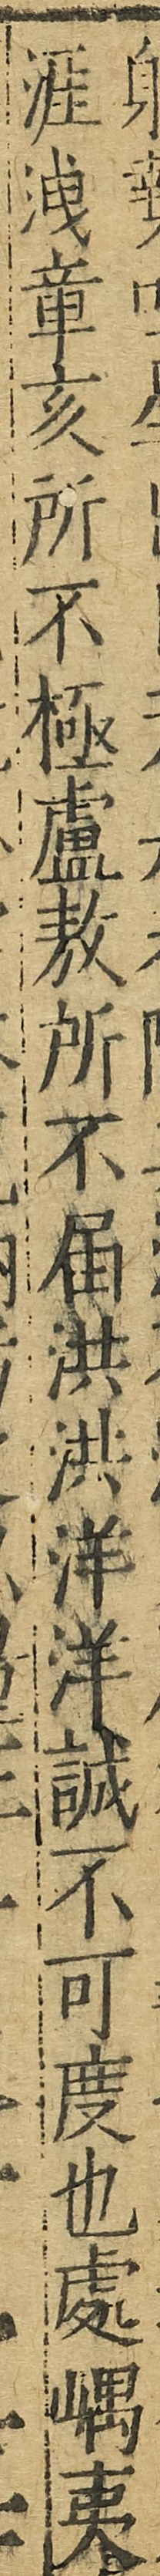涯洩章亥所不極盧敖所不屆洪洪洋洋誠不可度也處嵎夷
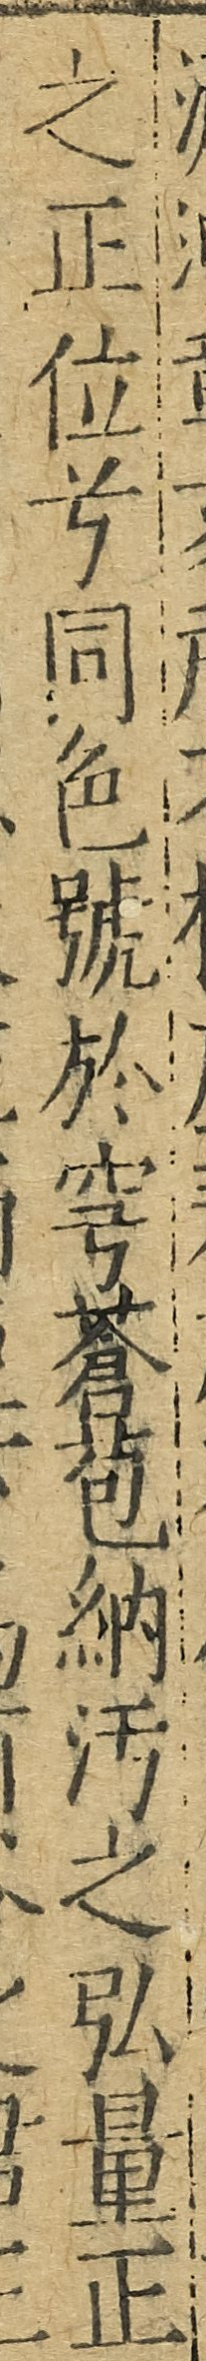之正位兮同色號於穹蒼苞納汙之弘量正
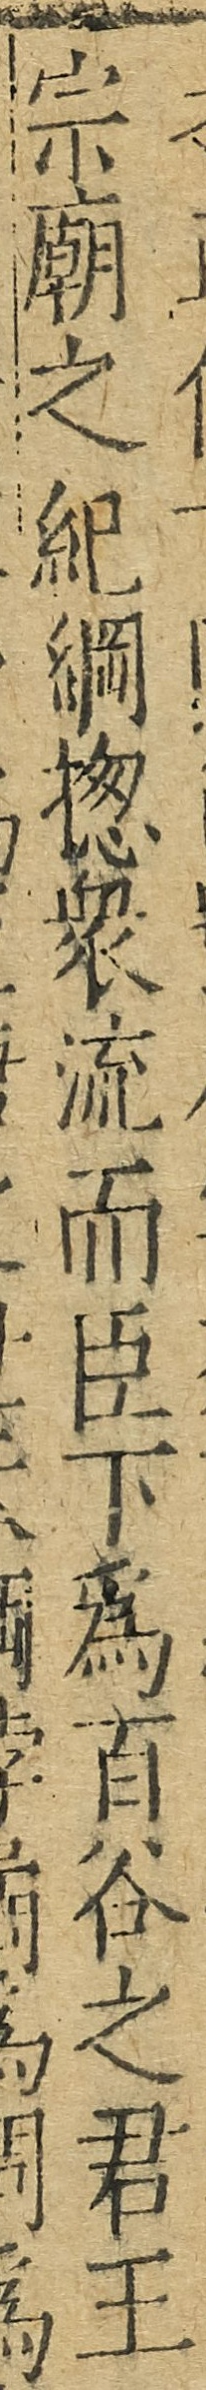宗廟之紀綱揔眾流而臣下為百谷之君王
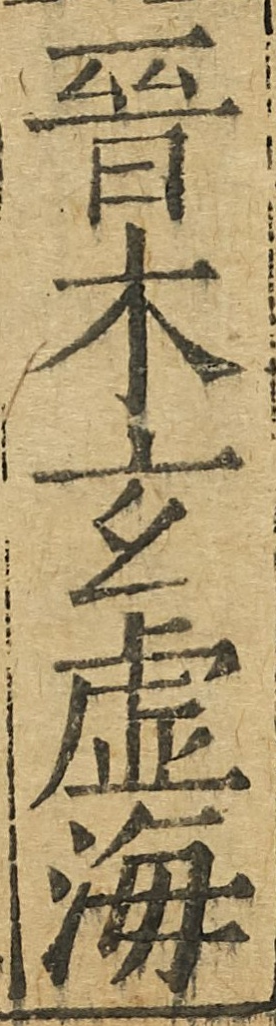晉木玄虛海
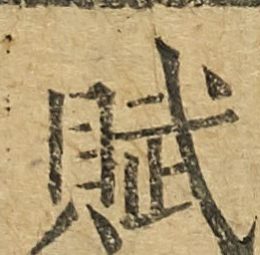賦
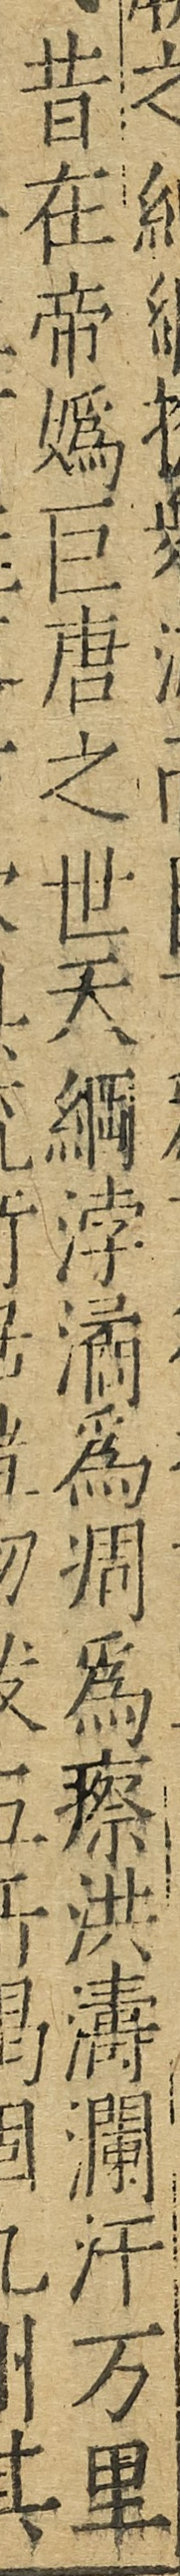昔在帝媯巨唐之世天綱浡潏為凋為瘵洪濤瀾汗萬里
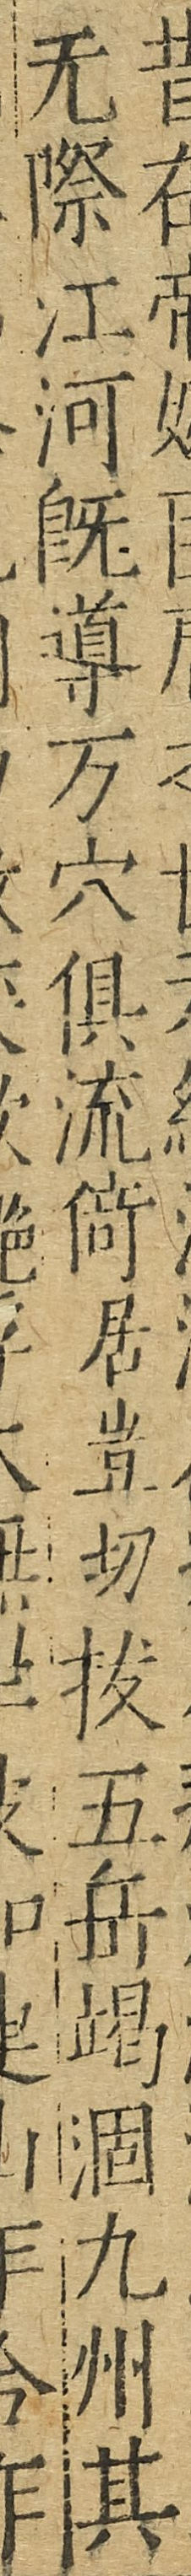無際江河旣導萬穴俱流椅居豈切拔五岳竭涸九州其
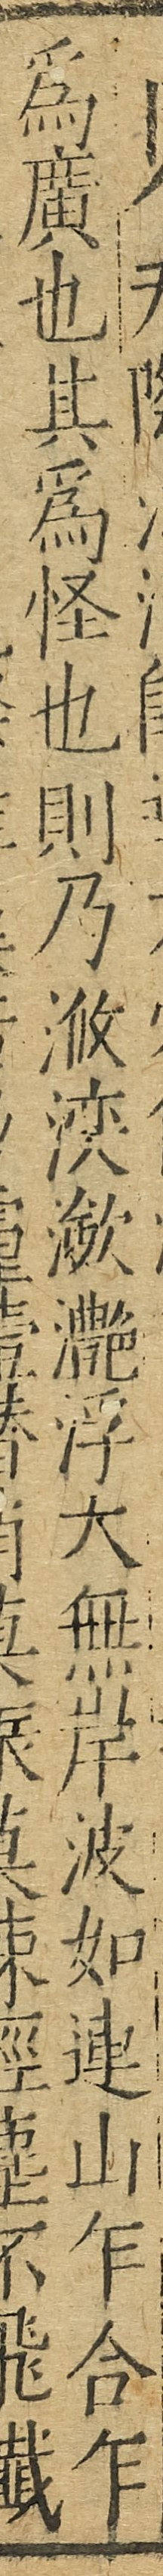為廣也其為怪也則乃浟灤瀲灧浮大無岸波如連山乍合乍
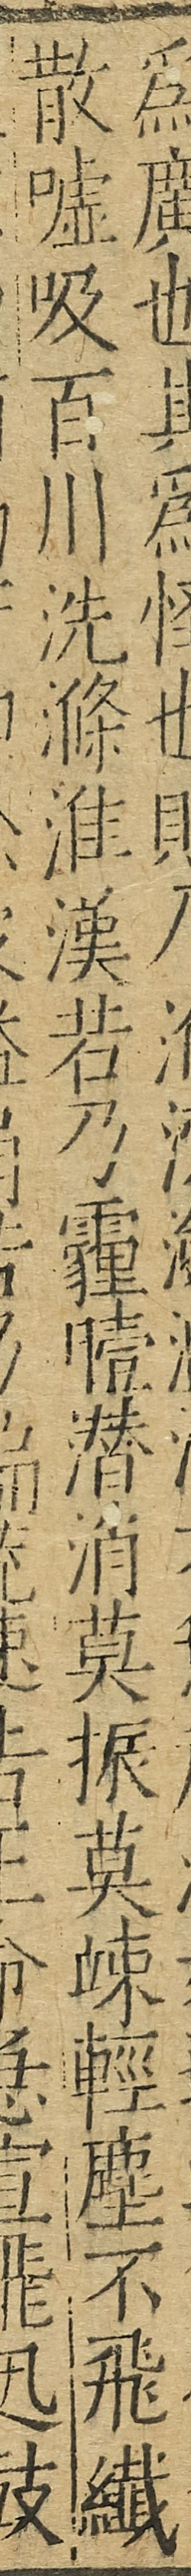散噓吸百川洗滌淮漢若乃霾曀潛消莫振莫竦輕塵不飛纖
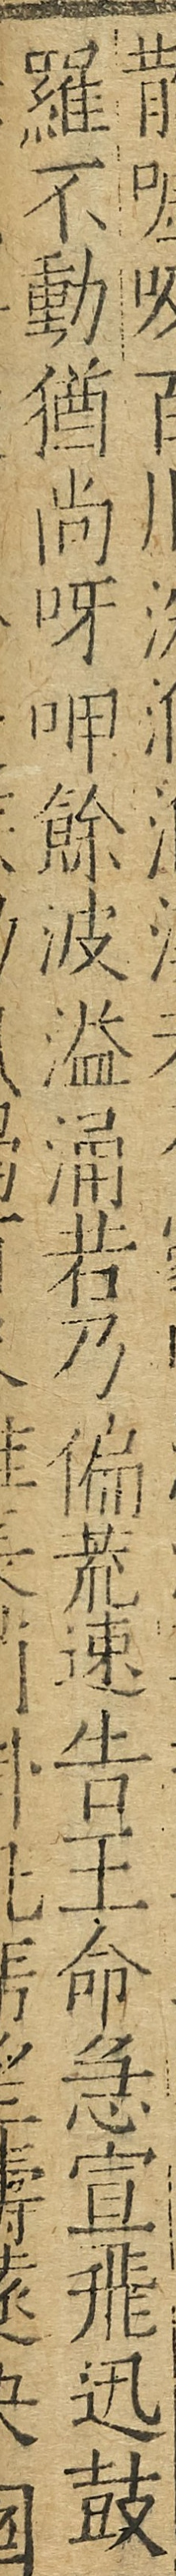羅不動猶尚呀呷餘波溢涌若乃偏荒速告王命急宣飛迅鼓
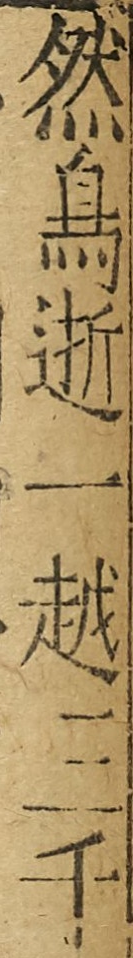然鳥逝一越三千
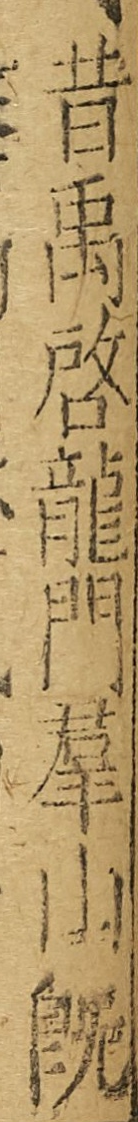昔禹啟龍門羣山旣
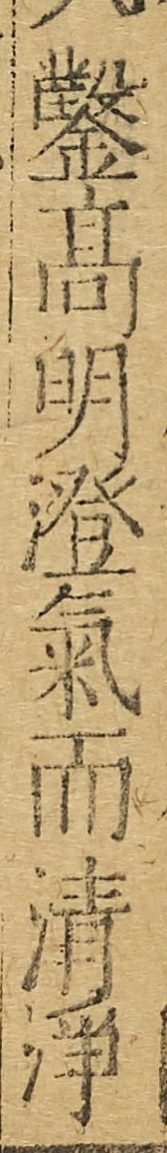鑿高明澄氣而清浮
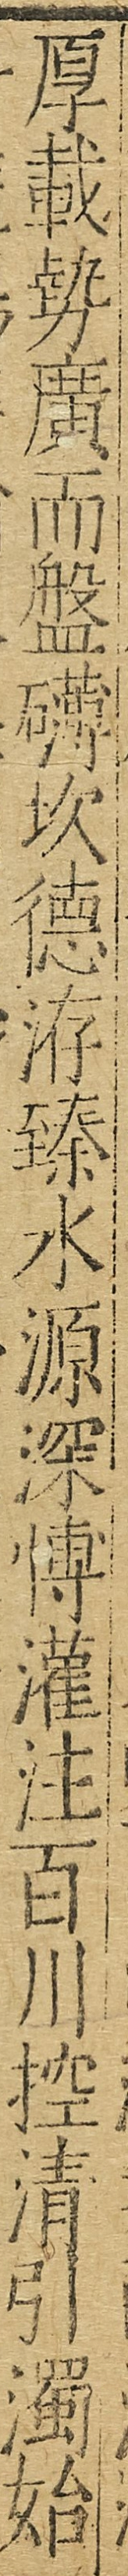厚載勢廣而盤礴坎德洊臻水源深博灌注百川控清引濁始
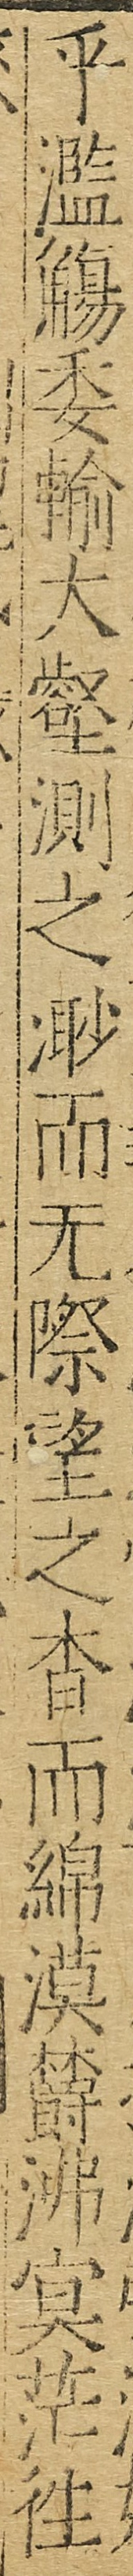乎濫觴委輸大壑測之渺而無際望之杳而綿漠鬱沸冥茫往
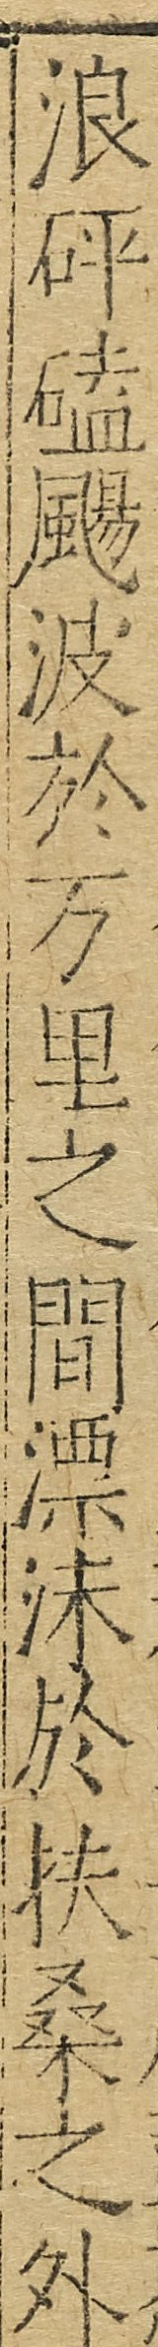浪砰磕颺波於萬里之間漂沫於扶桑之外
